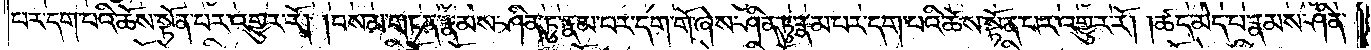པར་དག་པའི་ཆོས་སྟོན་པར་འགྱུར་རོ། །བསམ་གཏན་རྣམས་ཤིན་ཏུ་རྣམ་པར་དག་གོ་ཞེས་ཤིན་ཏུ་རྣམ་པར་དག་པའི་ཆོས་སྟོན་པར་འགྱུར་རོ། །ཚད་མེད་པ་རྣམས་ཤིན་
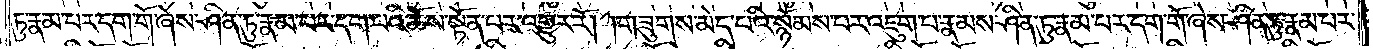ཏུ་རྣམ་པར་དག་གོ་ཞེས་ཤིན་ཏུ་རྣམ་པར་དག་པའི་ཆོས་སྟོན་པར་འགྱུར་རོ། །གཟུགས་མེད་པའི་སྙོམས་པར་འཇུག་པ་རྣམས་ཤིན་ཏུ་རྣམ་པར་དག་གོ་ཞེས་ཤིན་ཏུ་རྣམ་པར་
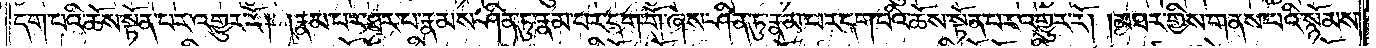དག་པའི་ཆོས་སྟོན་པར་འགྱུར་རོ། །རྣམ་པར་ཐར་པ་རྣམས་ཤིན་ཏུ་རྣམ་པར་དག་གོ་ཞེས་ཤིན་ཏུ་རྣམ་པར་དག་པའི་ཆོས་སྟོན་པར་འགྱུར་རོ། །མཐར་གྱིས་གནས་པའི་སྙོམས་
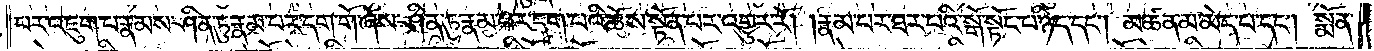པར་འཇུག་པ་རྣམས་ཤིན་ཏུ་རྣམ་པར་དག་གོ་ཞེས་ཤིན་ཏུ་རྣམ་པར་དག་པའི་ཆོས་སྟོན་པར་འགྱུར་རོ། །རྣམ་པར་ཐར་པའི་སྒོ་སྟོང་པ་ཉིད་དང༌། མཚན་མ་མེད་པ་དང༌། སྨོན་
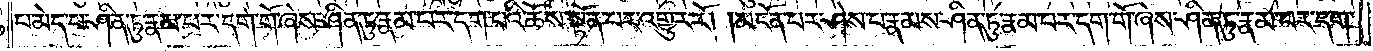པ་མེད་པ་ཤིན་ཏུ་རྣམ་པར་དག་གོ་ཞེས་ཤིན་ཏུ་རྣམ་པར་དག་པའི་ཆོས་སྟོན་པར་འགྱུར་རོ། །མངོན་པར་ཤེས་པ་རྣམས་ཤིན་ཏུ་རྣམ་པར་དག་གོ་ཞེས་ཤིན་ཏུ་རྣམ་པར་དག་
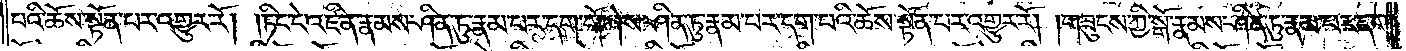པའི་ཆོས་སྟོན་པར་འགྱུར་རོ། །ཏིང་ངེ་འཛིན་རྣམས་ཤིན་ཏུ་རྣམ་པར་དག་གོ་ཞེས་ཤིན་ཏུ་རྣམ་པར་དག་པའི་ཆོས་སྟོན་པར་འགྱུར་རོ། །གཟུངས་ཀྱི་སྒོ་རྣམས་ཤིན་ཏུ་རྣམ་པར་དག་
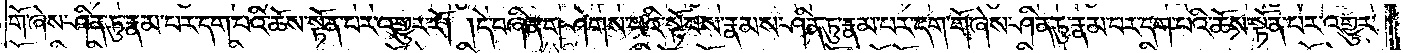གོ་ཞེས་ཤིན་ཏུ་རྣམ་པར་དག་པའི་ཆོས་སྟོན་པར་འགྱུར་རོ། །དེ་བཞིན་གཤེགས་པའི་སྟོབས་རྣམས་ཤིན་ཏུ་རྣམ་པར་དག་གོ་ཞེས་ཤིན་ཏུ་རྣམ་པར་དག་པའི་ཆོས་སྟོན་པར་འགྱུར་
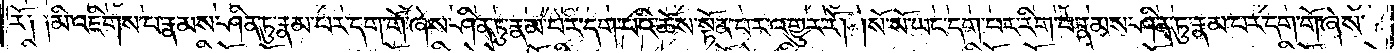རོ༑ ༑མི་འཇིགས་པ་རྣམས་ཤིན་ཏུ་རྣམ་པར་དག་གོ་ཞེས་ཤིན་ཏུ་རྣམ་པར་དག་པའི་ཆོས་སྟོན་པར་འགྱུར་རོ། །སོ་སོ་ཡང་དག་པར་རིག་པ་རྣམས་ཤིན་ཏུ་རྣམ་པར་དག་གོ་ཞེས་
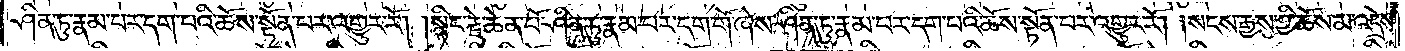ཤིན་ཏུ་རྣམ་པར་དག་པའི་ཆོས་སྟོན་པར་འགྱུར་རོ། །སྙིང་རྗེ་ཆེན་པོ་ཤིན་ཏུ་རྣམ་པར་དག་གོ་ཞེས་ཤིན་ཏུ་རྣམ་པར་དག་པའི་ཆོས་སྟོན་པར་འགྱུར་རོ། །སངས་རྒྱས་ཀྱི་ཆོས་མ་འདྲེས་
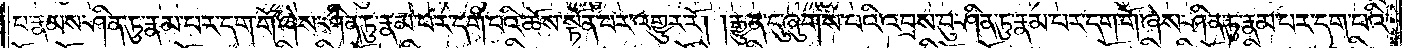པ་རྣམས་ཤིན་ཏུ་རྣམ་པར་དག་གོ་ཞེས་ཤིན་ཏུ་རྣམ་པར་དག་པའི་ཆོས་སྟོན་པར་འགྱུར་རོ། །རྒྱུན་དུ་ཞུགས་བའི་འབྲས་བུ་ཤིན་ཏུ་རྣམ་པར་དག་གོ་ཞེས་ཤིན་ཏུ་རྣམ་པར་དག་པའི་
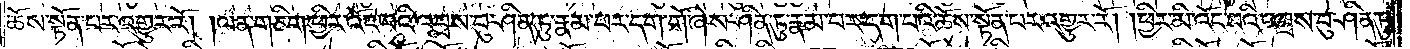ཆོས་སྟོན་པར་འགྱུར་རོ། །ལན་གཅིག་ཕྱིར་འོང་བའི་འབྲས་བུ་ཤིན་ཏུ་རྣམ་པར་དག་གོ་ཞེས་ཤིན་ཏུ་རྣམ་པར་དག་པའི་ཆོས་སྟོན་པར་འགྱུར་རོ། །ཕྱིར་མི་འོང་བའི་འབྲས་བུ་ཤིན་ཏུ་
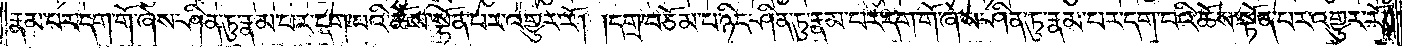རྣམ་པར་དག་གོ་ཞེས་ཤིན་ཏུ་རྣམ་པར་དག་པའི་ཆོས་སྟོན་པར་འགྱུར་རོ། །དགྲ་བཅོམ་པ་ཉིད་ཤིན་ཏུ་རྣམ་པར་དག་གོ་ཞེས་ཤིན་ཏུ་རྣམ་པར་དག་པའི་ཆོས་སྟོན་པར་འགྱུར་རོ། །
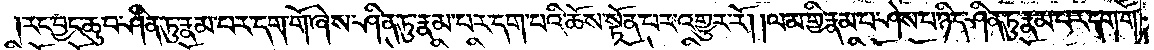རང་བྱང་ཆུབ་ཤིན་ཏུ་རྣམ་པར་དག་གོ་ཞེས་ཤིན་ཏུ་རྣམ་པར་དག་པའི་ཆོས་སྟོན་པར་འགྱུར་རོ། །ལམ་གྱི་རྣམ་པ་ཤེས་པ་ཉིད་ཤིན་ཏུ་རྣམ་པར་དག་གོ་
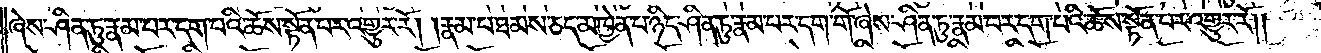ཞེས་ཤིན་ཏུ་རྣམ་པར་དག་པའི་ཆོས་སྟོན་པར་འགྱུར་རོ། །རྣམ་པ་ཐམས་ཅད་མཁྱེན་པ་ཉིད་ཤིན་ཏུ་རྣམ་པར་དག་གོ་ཞེས་ཤིན་ཏུ་རྣམ་པར་དག་པའི་ཆོས་སྟོན་པར་འགྱུར་རོ༎
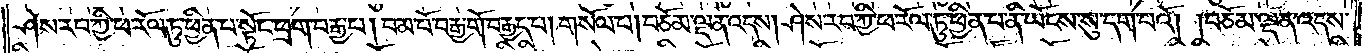ཤེས་རབ་ཀྱི་ཕ་རོལ་ཏུ་ཕྱིན་པ་སྟོང་ཕྲག་བརྒྱ་པ། བམ་པོ་བརྒྱ་གོ་བརྒྱད་པ། གསོལ་པ། བཅོམ་ལྡན་འདས། ཤེས་རབ་ཀྱི་ཕ་རོལ་ཏུ་ཕྱིན་པ་ནི་ཡོངས་སུ་དག་པའོ། །བཅོམ་ལྡན་འདས་
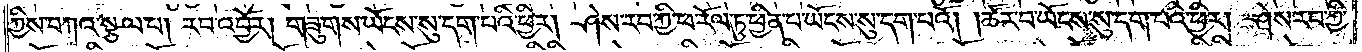ཀྱིས་བཀའ་སྩལ་པ། རབ་འབྱོར། གཟུགས་ཡོངས་སུ་དག་པའི་ཕྱིར། ཤེས་རབ་ཀྱི་ཕ་རོལ་ཏུ་ཕྱིན་པ་ཡོངས་སུ་དག་པའོ། །ཚོར་བ་ཡོངས་སུ་དག་པའི་ཕྱིར། ཤེས་རབ་ཀྱི་
